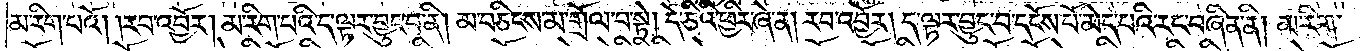མ་རིག་པའོ། །རབ་འབྱོར། མ་རིག་པའི་ད་ལྟར་བྱུང་བ་ནི། མ་བཅིངས་མ་གྲོལ་བ་སྟེ། དེ་ཅིའི་ཕྱིར་ཞེ་ན། རབ་འབྱོར། ད་ལྟར་བྱུང་བ་དངོས་པོ་མེད་པའི་རང་བཞིན་ནི། མ་རིག་
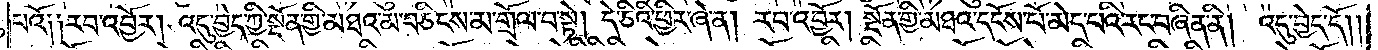པའོ༑ ༑རབ་འབྱོར། འདུ་བྱེད་ཀྱི་སྔོན་གྱི་མཐའ་མ་བཅིངས་མ་གྲོལ་བ་སྟེ། དེ་ཅིའི་ཕྱིར་ཞེ་ན། རབ་འབྱོར། སྔོན་གྱི་མཐའ་དངོས་པོ་མེད་པའི་རང་བཞིན་ནི། འདུ་བྱེད་དོ། །
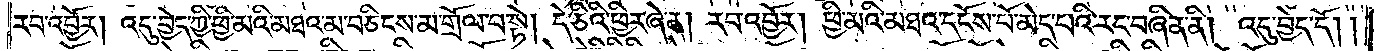རབ་འབྱོར། འདུ་བྱེད་ཀྱི་ཕྱི་མའི་མཐའ་མ་བཅིངས་མ་གྲོལ་བ་སྟེ། དེ་ཅིའི་ཕྱིར་ཞེ་ན། རབ་འབྱོར། ཕྱི་མའི་མཐའ་དངོས་པོ་མེད་པའི་རང་བཞིན་ནི། འདུ་བྱེད་དོ། །
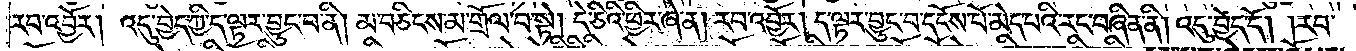རབ་འབྱོར། འདུ་བྱེད་ཀྱི་ད་ལྟར་བྱུང་བ་ནི། མ་བཅིངས་མ་གྲོལ་བ་སྟེ། དེ་ཅིའི་ཕྱིར་ཞེ་ན། རབ་འབྱོར། ད་ལྟར་བྱུང་བ་དངོས་པོ་མེད་པའི་རང་བཞིན་ནི། འདུ་བྱེད་དོ། །རབ་
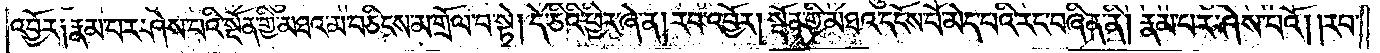འབྱོར༑ རྣམ་པར་ཤེས་པའི་སྔོན་གྱི་མཐའ་མ་བཅིངས་མ་གྲོལ་བ་སྟེ། དེ་ཅིའི་ཕྱིར་ཞེ་ན། རབ་འབྱོར། སྔོན་གྱི་མཐའ་དངོས་པོ་མེད་པའི་རང་བཞིན་ནི། རྣམ་པར་ཤེས་པའོ། །རབ་
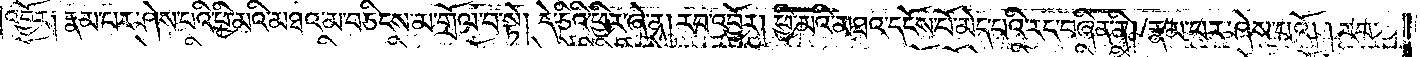འབྱོར༑ རྣམ་པར་ཤེས་པའི་ཕྱི་མའི་མཐའ་མ་བཅིངས་མ་གྲོལ་བ་སྟེ། དེ་ཅིའི་ཕྱིར་ཞེ་ན། རབ་འབྱོར། ཕྱི་མའི་མཐའ་དངོས་པོ་མེད་པའི་རང་བཞིན་ནི། རྣམ་པར་ཤེས་པའོ། །རབ་
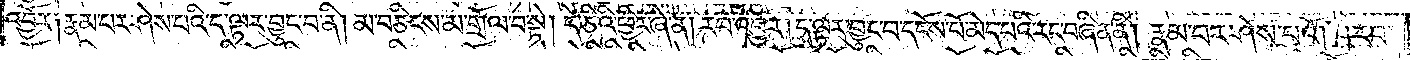འབྱོར༑ རྣམ་པར་ཤེས་པའི་ད་ལྟར་བྱུང་བ་ནི། མ་བཅིངས་མ་གྲོལ་བ་སྟེ། དེ་ཅིའི་ཕྱིར་ཞེ་ན། རབ་འབྱོར། ད་ལྟར་བྱུང་བ་དངོས་པོ་མེད་པའི་རང་བཞིན་ནི། རྣམ་པར་ཤེས་པའོ། །རབ་
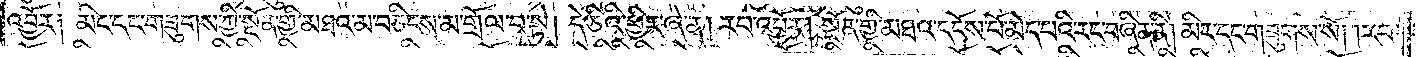འབྱོར༑ མིང་དང་གཟུགས་ཀྱི་སྔོན་གྱི་མཐའ་མ་བཅིངས་མ་གྲོལ་བ་སྟེ། དེ་ཅིའི་ཕྱིར་ཞེ་ན། རབ་འབྱོར། སྔོན་གྱི་མཐའ་དངོས་པོ་མེད་པའི་རང་བཞིན་ནི། མིང་དང་གཟུགས་སོ། །རབ་
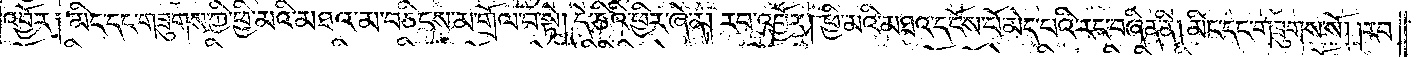འབྱོར༑ མིང་དང་གཟུགས་ཀྱི་ཕྱི་མའི་མཐའ་མ་བཅིངས་མ་གྲོལ་བ་སྟེ། དེ་ཅིའི་ཕྱིར་ཞེ་ན། རབ་འབྱོར། ཕྱི་མའི་མཐའ་དངོས་པོ་མེད་པའི་རང་བཞིན་ནི། མིང་དང་གཟུགས་སོ། །རབ་
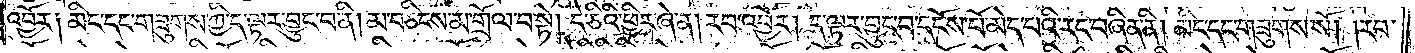འབྱོར༑ མིང་དང་གཟུགས་ཀྱི་ད་ལྟར་བྱུང་བ་ནི། མ་བཅིངས་མ་གྲོལ་བ་སྟེ། དེ་ཅིའི་ཕྱིར་ཞེ་ན། རབ་འབྱོར། ད་ལྟར་བྱུང་བ་དངོས་པོ་མེད་པའི་རང་བཞིན་ནི། མིང་དང་གཟུགས་སོ། །རབ་
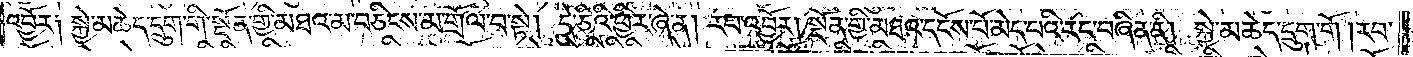འབྱོར༑ སྐྱེ་མཆེད་དྲུག་གི་སྔོན་གྱི་མཐའ་མ་བཅིངས་མ་གྲོལ་བ་སྟེ། དེ་ཅིའི་ཕྱིར་ཞེ་ན། རབ་འབྱོར། སྔོན་གྱི་མཐའ་དངོས་པོ་མེད་པའི་རང་བཞིན་ནི། སྐྱེ་མཆེད་དྲུག་གོ །རབ་
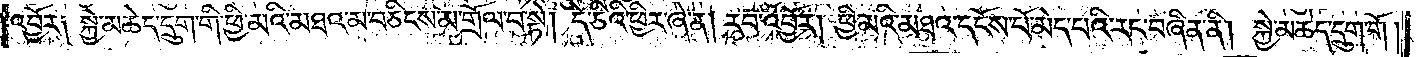འབྱོར༑ སྐྱེ་མཆེད་དྲུག་གི་ཕྱི་མའི་མཐའ་མ་བཅིངས་མ་གྲོལ་བ་སྟེ། དེ་ཅིའི་ཕྱིར་ཞེ་ན། རབ་འབྱོར། ཕྱི་མའི་མཐའ་དངོས་པོ་མེད་པའི་རང་བཞིན་ནི། སྐྱེ་མཆེད་དྲུག་གོ།
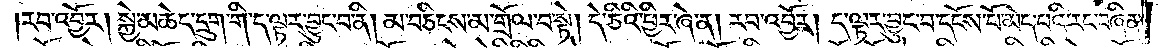རབ་འབྱོར། སྐྱེ་མཆེད་དྲུག་གི་ད་ལྟར་བྱུང་བ་ནི། མ་བཅིངས་མ་གྲོལ་བ་སྟེ། ད་ཅིའི་ཕྱིར་ཞེ་ན། རབ་འབྱོར། ད་ལྟར་བྱུང་བ་དངོས་པོ་མེད་པའི་རང་བཞིན་
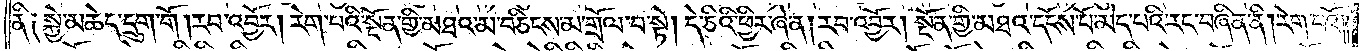ནི༑ སྐྱེ་མཆེད་དྲུག་གོ། རབ་འབྱོར། རེག་པའི་སྔོན་གྱི་མཐའ་མ་བཅིངས་མ་གྲོལ་བ་སྟེ། དེ་ཅིའི་ཕྱིར་ཞེ་ན། རབ་འབྱོར། སྔོན་གྱི་མཐའ་དངོས་པོ་མེད་པའི་རང་བཞིན་ནི། རེག་པའོ། །
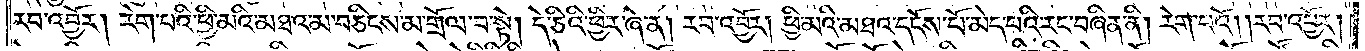རབ་འབྱོར། རེག་པའི་ཕྱི་མའི་མཐའ་མ་བཅིངས་མ་གྲོལ་བ་སྟེ། དེ་ཅིའི་ཕྱིར་ཞེ་ན། རབ་འབྱོར། ཕྱི་མའི་མཐའ་དངོས་པོ་མེད་པའི་རང་བཞིན་ནི། རེག་པའོ། །རབ་འབྱོར།
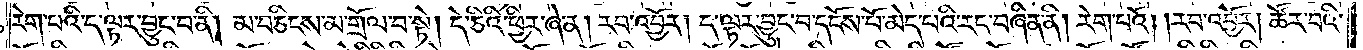རེག་པའི་ད་ལྟར་བྱུང་བ་ནི། མ་བཅིངས་མ་གྲོལ་བ་སྟེ། དེ་ཅིའི་ཕྱིར་ཞེ་ན། རབ་འབྱོར། ད་ལྟར་བྱུང་བ་དངོས་པོ་མེད་པའི་རང་བཞིན་ནི། རེག་པའོ། །རབ་འབྱོར། ཚོར་བའི་
